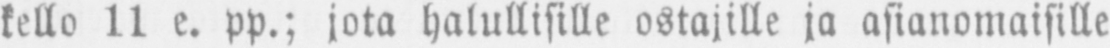kello 11 e. pp.; jota halullisille ostajille ja asianomaisille
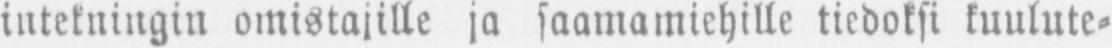intekningin omistajille ja saamamiehille tiedoksi kuulute-
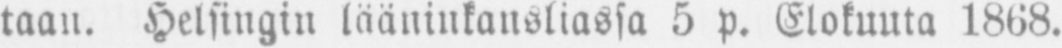taan. Helsingin lääninkansliassa 5 p. Elokuuta 1868.
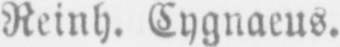Reinh. Cygnaeus.
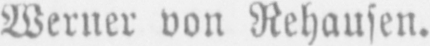Werner von Rehausen.
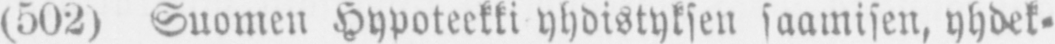(502) Suomen Hypoteekki yhdistyksen saamisen, yhdek-
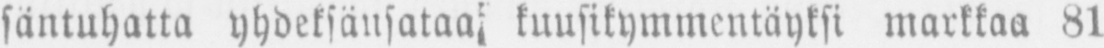säntuhatta yhdeksänsataa, kuusikymmentäyksi markkaa 81
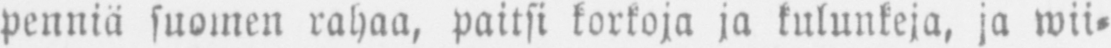penniä suomen rahaa, paitsi korkoja ja kulunkeja, ja wii-
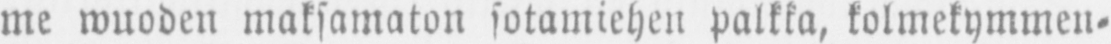me wuoden maksamaton sotamiehen palkka, kolmekymmen-
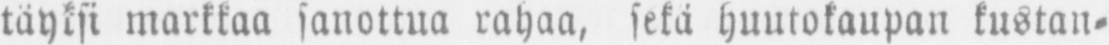täyksi markkaa sanottua rahaa, sekä huutokaupan kustan-
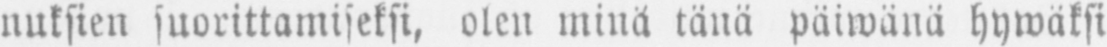nuksien suorittamiseksi, olen minä tänä päiwänä hywäksi
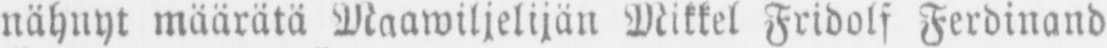nähnyt määrätä Maawiljelijän Mikkel Fridolf Ferdinand
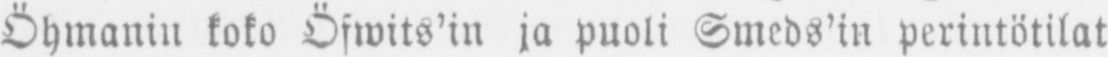Öhmanin koko Öfwits'in ja puoli Smeds'in perintötilat
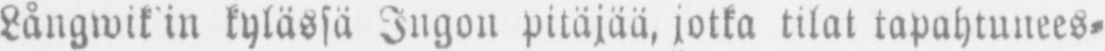Långwit'in kylässä Ingon pitäjää, jotka tilat tapahtunees-
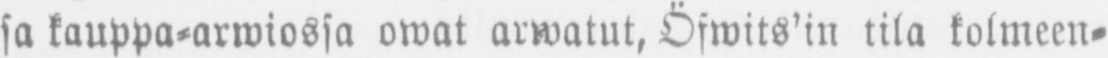sa kauppa-arwiossa owat arwatut, Öfwits'in tila kolmeen-
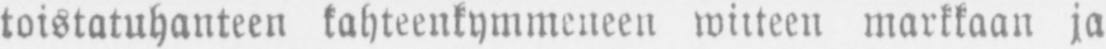tistatuhanteen kahteenkymmeneen wiiteen markkaan ja
